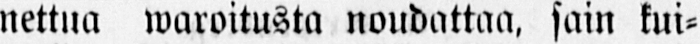nettua waroitusta noudattaa, sain kui-
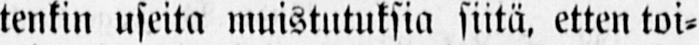tenkin useita muistutuksia siitä, etten toi-
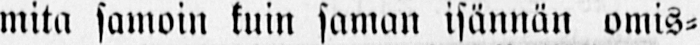mita samoin kuin saman isännän omis-
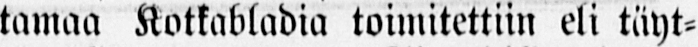tamaa Kotkabladia toimitettiin eli täyt-
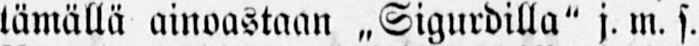tämällä ainoastaan ˶Sigurdilla" j. m. s.
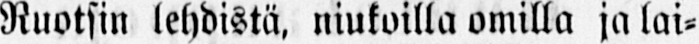Ruotsin lehdistä, niukoilla omilla ja lai-
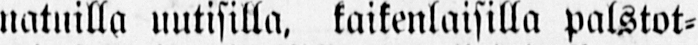natuilla uutisilla, kaikenlaisilla palstot-
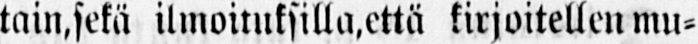tain, sekä ilmoituksilla, että kirjoitellen mu-
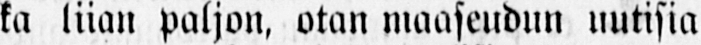ka liian paljon, otan maaseudun uutisia
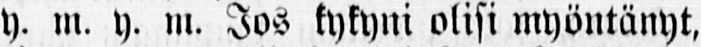y. m. y. m. Jos kykyni olisi myöntänyt,
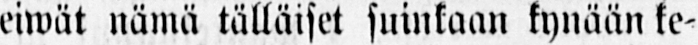eiwät nämä tälläiset suinkaan kynään ke-
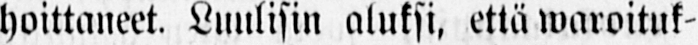hoittaneet. Luulisin aluksi, että waroituk-
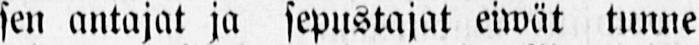sen antajat ja sepustajat eiwät tunne
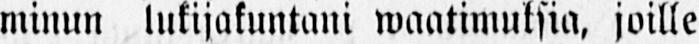minun lukijakuntani waatimuksia, joille
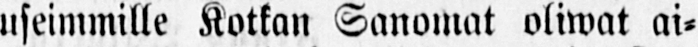useimmille Kotkan Sanomat oliwat ai-
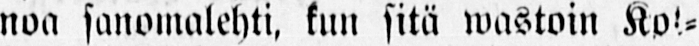noa sanomalehti, kun sitä wastoin Kot-
